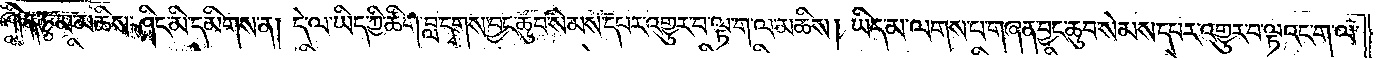ཤིན་ཏུ་མ་མཆིས་ཤིང་མི་དམིགས་ན། དེ་ལ་ཡིད་ཀྱི་ཚིག་བླ་དྭགས་བྱང་ཆུབ་སེམས་དཔར་འགྱུར་བ་ལྟ་ག་ལ་མཆིས། ཡིད་མ་ལགས་པ་གཞན་བྱང་ཆུབ་སེམས་དཔར་འགྱུར་བ་ལྟའང་ག་ལ་
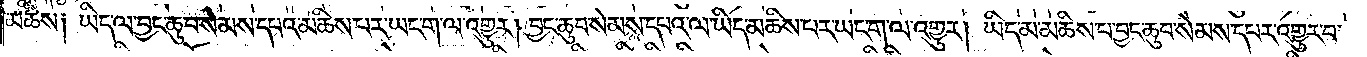མཆིས༑ ཡིད་ལ་བྱང་ཆུབ་སེམས་དཔའ་མཆིས་པར་ཡང་ག་ལ་འགྱུར། བྱང་ཆུབ་སེམས་དཔའ་ལ་ཡིད་མཆིས་པར་ཡང་ག་ལ་འགྱུར། ཡིད་མ་མཆིས་པ་བྱང་ཆུབ་སེམས་དཔར་འགྱུར་བ་
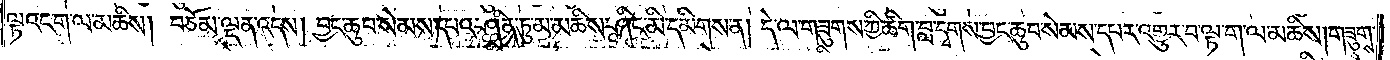ལྟའང་ག་ལ་མཆིས། བཅོམ་ལྡན་འདས། བྱང་ཆུབ་སེམས་དཔའ་ཤིན་ཏུ་མ་མཆིས་ཤིང་མི་དམིགས་ན། དེ་ལ་གཟུགས་ཀྱི་ཚིག་བླ་དྭགས་བྱང་ཆུབ་སེམས་དཔར་འགྱུར་བ་ལྟ་ག་ལ་མཆིས། གཟུགས་
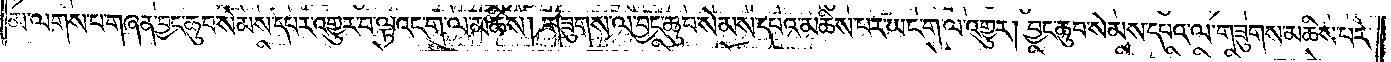མ་ལགས་པ་གཞན་བྱང་ཆུབ་སེམས་དཔར་འགྱུར་བ་ལྟའང་ག་ལ་མཆིས། གཟུགས་ལ་བྱང་ཆུབ་སེམས་དཔའ་མཆིས་པར་ཡང་ག་ལ་འགྱུར། བྱང་ཆུབ་སེམས་དཔའ་ལ་གཟུགས་མཆིས་པར་
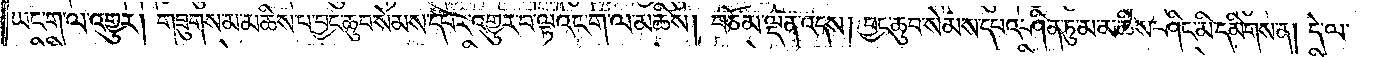ཡང་ག་ལ་འགྱུར། གཟུགས་མ་མཆིས་པ་བྱང་ཆུབ་སེམས་དཔར་འགྱུར་བ་ལྟའང་ག་ལ་མཆིས། བཅོམ་ལྡན་འདས། བྱང་ཆུབ་སེམས་དཔའ་ཤིན་ཏུ་མ་མཆིས་ཤིང་མི་དམིགས་ན། དེ་ལ་
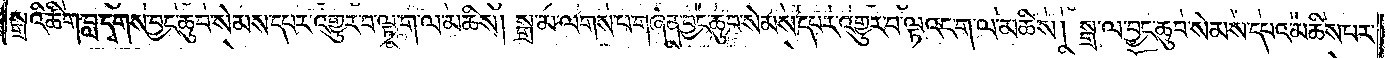སྒྲའི་ཚིག་བླ་དྭགས་བྱང་ཆུབ་སེམས་དཔར་འགྱུར་བ་ལྟ་ག་ལ་མཆིས། སྒྲ་མ་ལགས་པ་གཞན་བྱང་ཆུབ་སེམས་དཔར་འགྱུར་བ་ལྟའང་ག་ལ་མཆིས། སྒྲ་ལ་བྱང་ཆུབ་སེམས་དཔའ་མཆིས་པར་
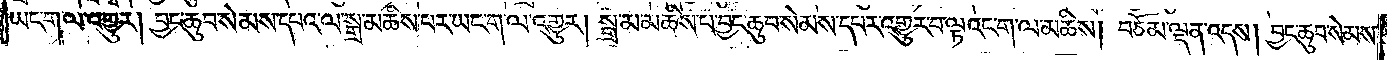ཡང་ག་ལ་འགྱུར། བྱང་ཆུབ་སེམས་དཔའ་ལ་སྒྲ་མཆིས་པར་ཡང་ག་ལ་འགྱུར། སྒྲ་མ་མཆིས་པ་བྱང་ཆུབ་སེམས་དཔར་འགྱུར་བ་ལྟའང་ག་ལ་མཆིས། བཅོམ་ལྡན་འདས། བྱང་ཆུབ་སེམས་
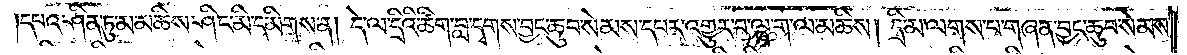དཔའ་ཤིན་ཏུ་མ་མཆིས་ཤིང་མི་དམིགས་ན། དེ་ལ་དྲིའི་ཚིག་བླ་དྭགས་བྱང་ཆུབ་སེམས་དཔར་འགྱུར་བ་ལྟ་ག་ལ་མཆིས། དྲི་མ་ལགས་པ་གཞན་བྱང་ཆུབ་སེམས་
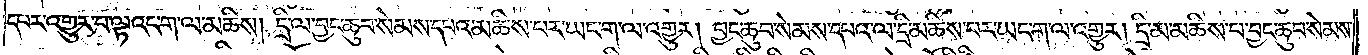དཔར་འགྱུར་བ་ལྟའང་ག་ལ་མཆིས། དྲི་ལ་བྱང་ཆུབ་སེམས་དཔའ་མཆིས་པར་ཡང་ག་ལ་འགྱུར། བྱང་ཆུབ་སེམས་དཔའ་ལ་དྲི་མཆིས་པར་ཡང་ག་ལ་འགྱུར། དྲི་མ་མཆིས་པ་བྱང་ཆུབ་སེམས་
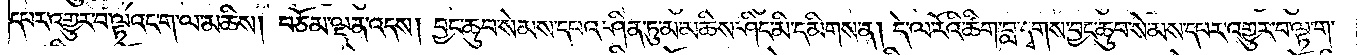དཔར་འགྱུར་བ་ལྟའང་ག་ལ་མཆིས། བཅོམ་ལྡན་འདས། བྱང་ཆུབ་སེམས་དཔའ་ཤིན་ཏུ་མ་མཆིས་ཤིང་མི་དམིགས་ན། དེ་ལ་རོའི་ཚིག་བླ་དྭགས་བྱང་ཆུབ་སེམས་དཔར་འགྱུར་བ་ལྟ་ག་
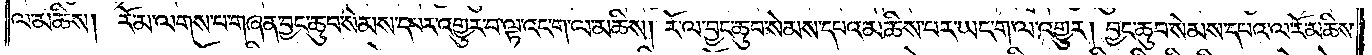ལ་མཆིས། རོ་མ་ལགས་པ་གཞན་བྱང་ཆུབ་སེམས་དཔར་འགྱུར་བ་ལྟའང་ག་ལ་མཆིས། རོ་ལ་བྱང་ཆུབ་སེམས་དཔའ་མཆིས་པར་ཡང་ག་ལ་འགྱུར། བྱང་ཆུབ་སེམས་དཔའ་ལ་རོ་མཆིས་
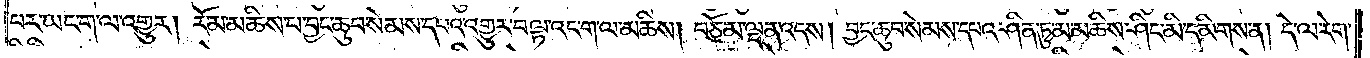པར་ཡང་ག་ལ་འགྱུར། རོ་མ་མཆིས་པ་བྱང་ཆུབ་སེམས་དཔའ་འགྱུར་བ་ལྟའང་ག་ལ་མཆིས། བཅོམ་ལྡན་འདས། བྱང་ཆུབ་སེམས་དཔའ་ཤིན་ཏུ་མ་མཆིས་ཤིང་མི་དམིགས་ན། དེ་ལ་རེག་
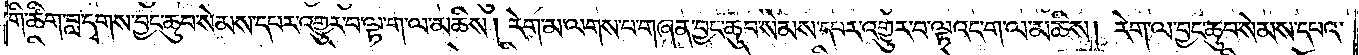གི་ཚིག་བླ་དྭགས་བྱང་ཆུབ་སེམས་དཔར་འགྱུར་བ་ལྟ་ག་ལ་མཆིས། རེག་མ་ལགས་པ་གཞན་བྱང་ཆུབ་སེམས་དཔར་འགྱུར་བ་ལྟའང་ག་ལ་མཆིས། རེག་ལ་བྱང་ཆུབ་སེམས་དཔའ་
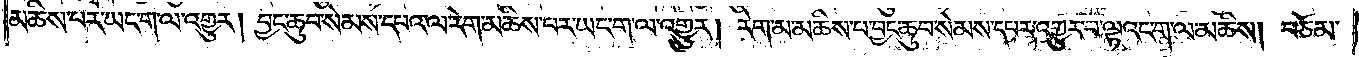མཆིས་པར་ཡང་ག་ལ་འགྱུར། བྱང་ཆུབ་སེམས་དཔའ་ལ་རེག་མཆིས་པར་ཡང་ག་ལ་འགྱུར། རེག་མ་མཆིས་པ་བྱང་ཆུབ་སེམས་དཔར་འགྱུར་བ་ལྟའང་ག་ལ་མཆིས། བཅོམ་
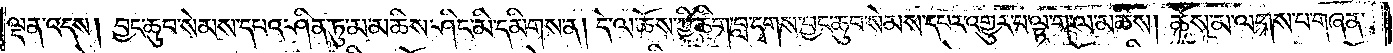ལྡན་འདས། བྱང་ཆུབ་སེམས་དཔའ་ཤིན་ཏུ་མ་མཆིས་ཤིང་མི་དམིགས་ན། དེ་ལ་ཆོས་ཀྱི་ཚིག་བླ་དྭགས་བྱང་ཆུབ་སེམས་དཔར་འགྱུར་པ་ལྟ་ག་ལ་མཆིས། ཆོས་མ་ལགས་པ་གཞན་
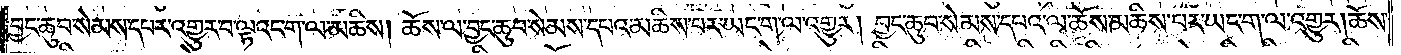བྱང་ཆུབ་སེམས་དཔར་འགྱུར་བ་ལྟའང་ག་ལ་མཆིས། ཆོས་ལ་བྱང་ཆུབ་སེམས་དཔའ་མཆིས་པར་ཡང་ག་ལ་འགྱུར། བྱང་ཆུབ་སེམས་དཔའ་ལ་ཆོས་མཆིས་པར་ཡང་ག་ལ་འགྱུར། ཆོས་
